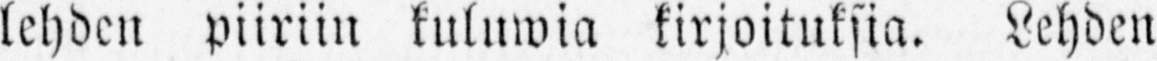lehden piiriin kuluwia kirjoituksia. Lehden
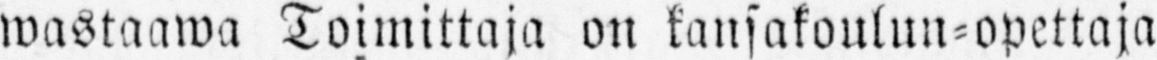wastaawa Toimittaja on kansakoulun-opettaja
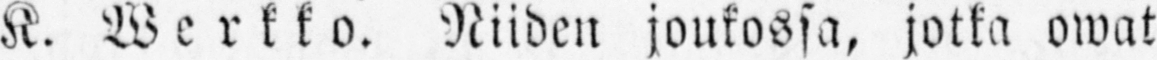K. Werkko. Niiden joukossa, jotka owat
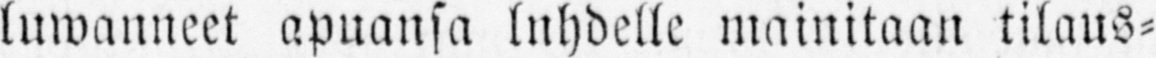luwanneet apuansa lahdelle mainitaan tilaus-
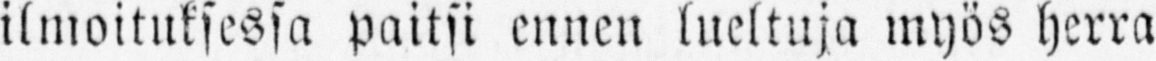ilmoituksessa paitsi ennen lueltuja myös herra
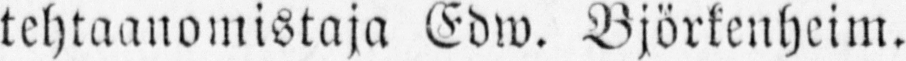tehtaanomistaja Edw. Björkenheim.
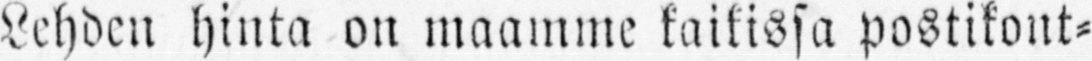Lehden hinta on maamme kaikissa postikont-
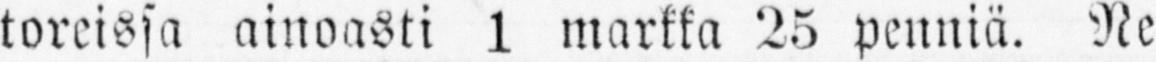toreissa ainoasti 1 markka 25 penniä. Ne
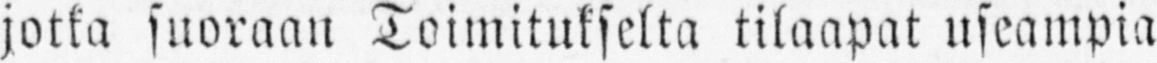jotka suoraan Toimitukselta tilaapat useampia
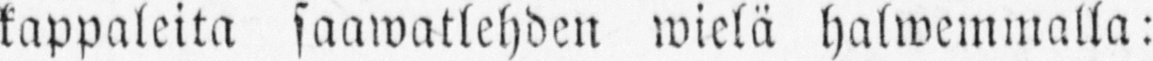kappaleita saawatlehden wielä halwemmalla:
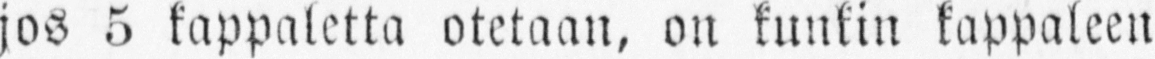jos 5 kappaletta otetaan, on kuntin kappaleen
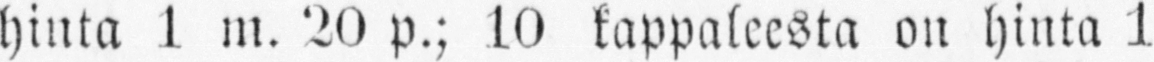hinta l m. 20 p.; kO kappaleesta on hinta 1
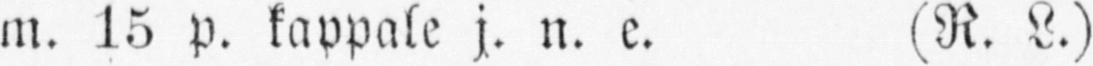m. 15 p. kappale j. n. e. (R. L.)
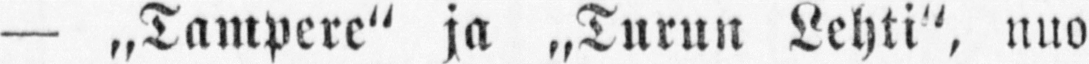— „Tampere" ja „Turun Lehti", nuo
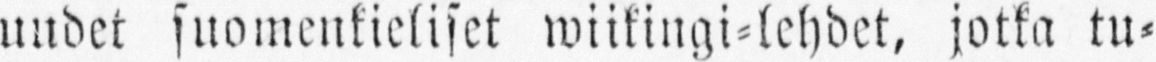uudet suomenkieliset wiikingi-lehdet, jotka tu-
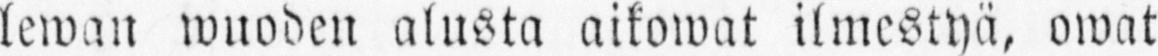lewan wuoden alusta aikowat ilmestyä, owat
